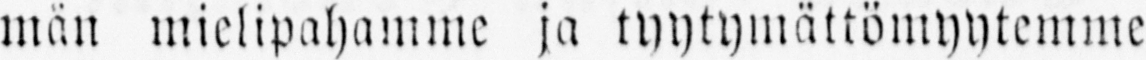män mielipahamme ja tyytymättömyytemme
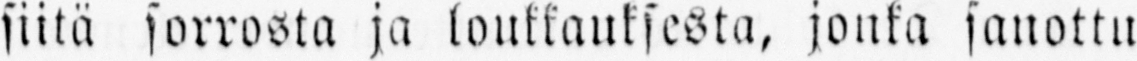siitä sorrosta ja loukkauksesta, jonka sanottu
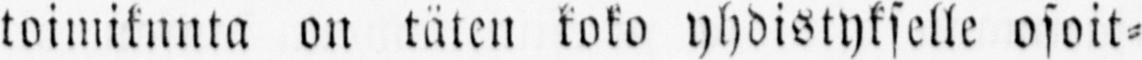toimikunta on täten koko yhdistykselle osoit-
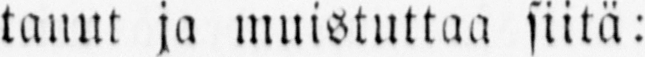tanut ja muistuttaa siitä:
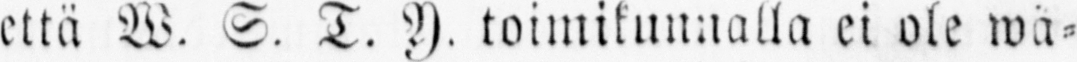että W. S. T. Y. toimikunnalla ei ole wä-
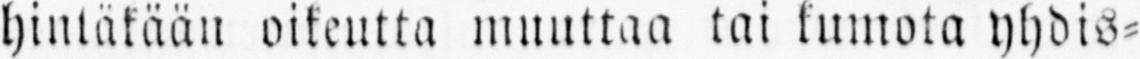hintäkään oikeutta muuttaa tai kumota yhdis-
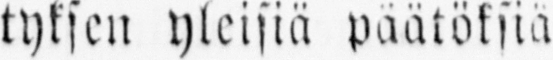tyksen yleisiä päätöksiä
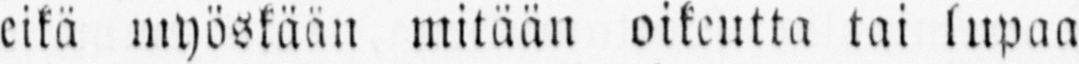eikä myöskään mitään oikeutta tai lupaa
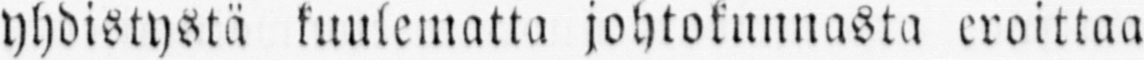yhdistystä kuulematta johtokunnasta eroittaa
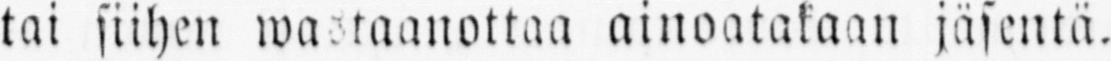tai siihen wastaanottaa ainoatakaan jäsentä.
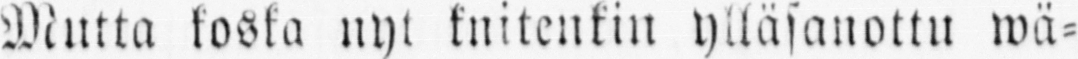Mutta koska nyt kuitenkin ylläsanottu wä-
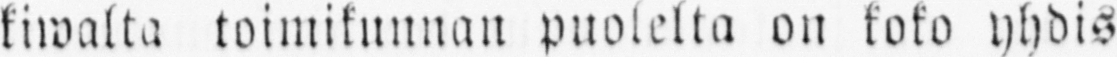kiwalta toimikunnan puolelta on koko yhdis-
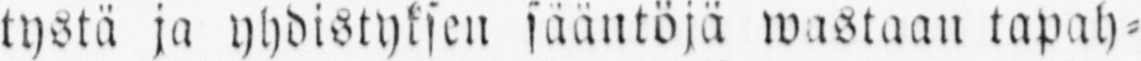tystä ja yhdistyksen sääntöjä wastaan tapah-
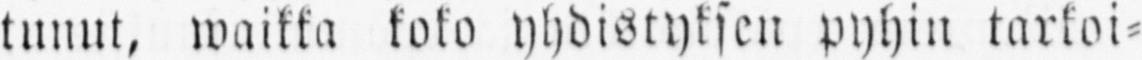tunut, waikka koko yhdistyksen pyhin tarkoi-
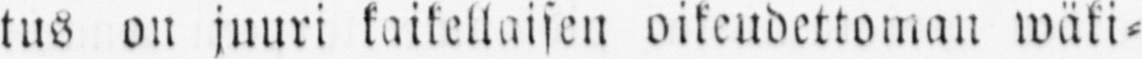tus on juuri kaikellaisen oikeudettoman wäki-
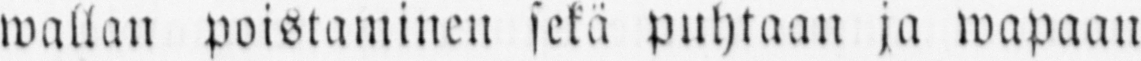wallan poistaminen sekä puhtaan ja wapaan
